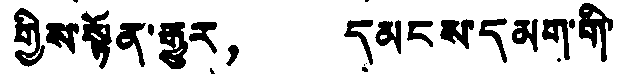གྱིས་སྟོན་རྒྱུར， དམངས་དམག་གི་
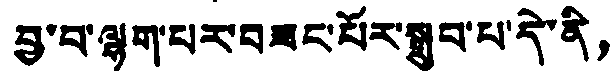བྱ་བ་ལྷག་པར་བཟང་པོར་སྒྲུབ་པ་དེ་ནི，
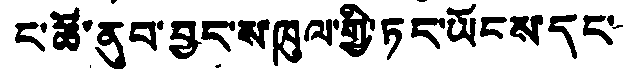ང་ཚོ་ནུབ་བྱང་ས་ཁུལ་གྱི་ཏང་ཡོངས་དང་
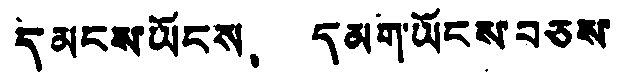དམངས་ཡོངས、 དམག་ཡོངས་བཅས་
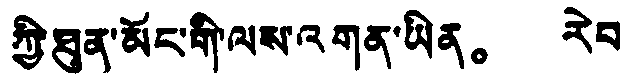ཀྱི་ཐུན་མོང་གི་ལས་འགན་ཡིན。 རེབ
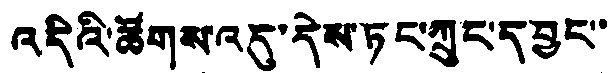འདིའི་ཚོགས་འདུ་དེས་ཏང་ཀྲུང་དབྱང་་
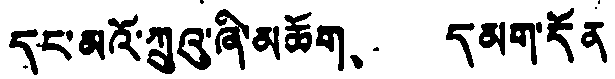དང་མའོ་ཀྲུའུ་ཞི་མཆོག、 དམག་དོན
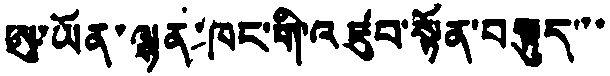ཨུ་ཡོན་ལྷན་ཁང་གི་འཛུབ་སྟོན་བསྟུད་་་
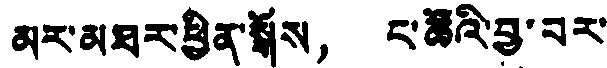མར་མཐར་ཕྱིན་སྒོས， ང་ཚོའི་བྱ་བར་
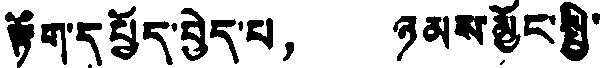རྟོག་དཔྱོད་བྱེད་པ， ཉམས་མྱོང་སྤྱི་
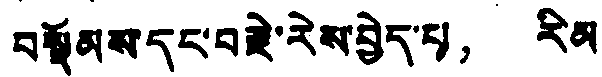བསྡོམས་དང་བརྗེ་རེས་བྱེད་པ， རིམ
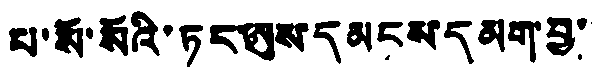པ་སོ་སོའི་ཏང་ཨུས་དམངས་དམག་བྱ་་
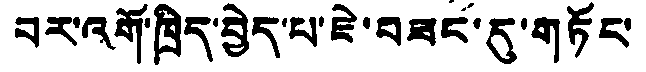བར་འགོ་ཁྲིད་བྱེད་པ་ཇེ་བཟང་དུ་གཏོང་
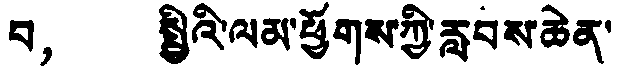བ， སྤྱིའི་ལམ་ཕྱོགས་ཀྱི་རླབས་ཆེན་
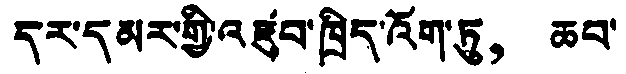དར་དམར་གྱི་འཛུབ་ཁྲིད་འོག་ཏུ， ཆབ་
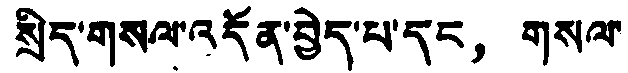སྲིད་གསལ་འདོན་བྱེད་པ་དང， གསལ་
